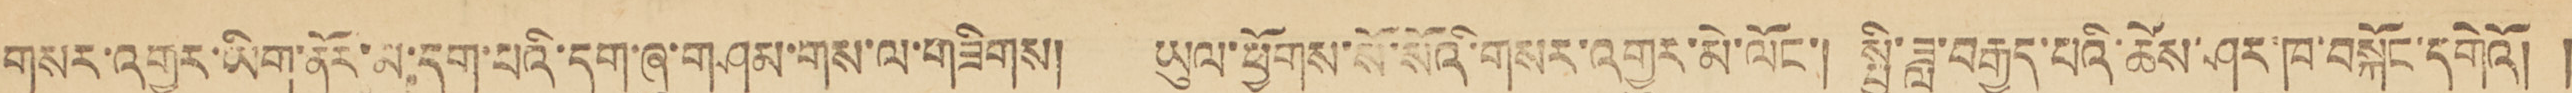གསར་འགྱུར་ཡིག་ནོར་མ་དག་པའི་དག་ཞུ་གཤམ་གས་ལ་གཟིགས། ཡུལ་ཕྱོགས་སོ་སོའི་གསར་འགྱུར་མེ་ལོང་། སྤྱི་ཟླ་བརྒྱད་པའི་ཚེས་ཤར་ཁ་བསྐོང་དགེའོ། །
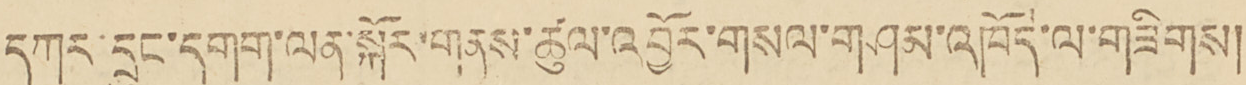དཀར་དྲུང་དགག་ལན་སྐོར་གནས་ཚུལ་འབྱོར་གསལ་གཤམ་འཁོད་ལ་གཟིགས།
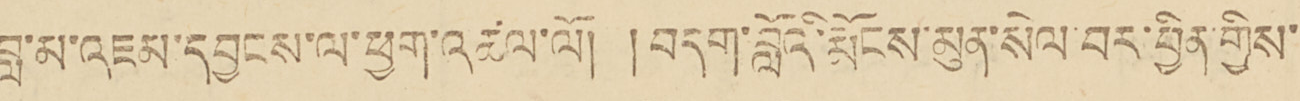བླ་མ་འཇམ་དབྱངས་ལ་ཕྱག་འཚལ་ལོ། །བདག་བློའི་རྨོངས་མུན་སེལ་བར་བྱིན་གྱིས་
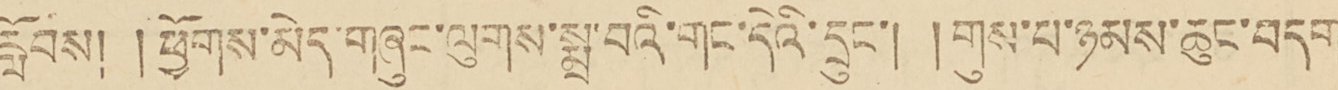རློབས། །ཕྱོགས་མེད་གཞུང་ལུགས་སྨྲ་བའི་གང་དེའི་དྲུང་། །གུས་པ་ཉམས་ཆུང་བདག
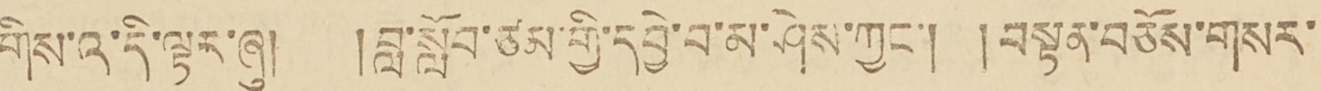གིས་འ་དི་ལྟར་ཞུ། །བླ་སློབ་ཙམ་གྱི་དབྱེ་བ་མ་ཤེས་ཀྱང་། །བསྟན་བཅོས་གསར་
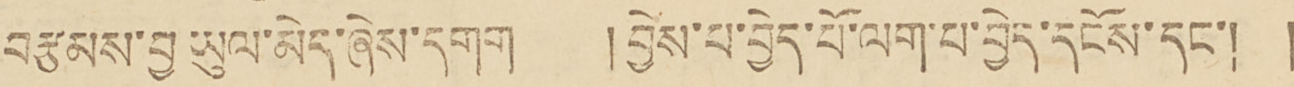བརྩམས་བྱ་ཡུལ་མེད་ཞེས་དགག །བྱེས་པ་བྱེད་པོ་ལག་པ་བྱེད་དངོས་དང་། །
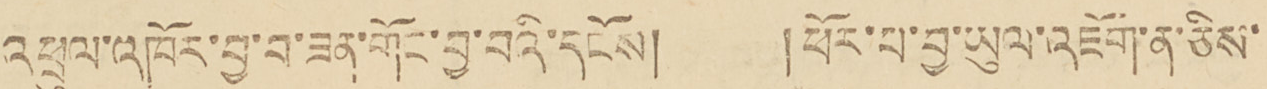འཕྲུལ་འཁོར་བྱ་བ་ཟན་གོང་བྱ་བའི་དངོས། །ཕོར་པ་བྱ་ཡུལ་འཇོག་ན་ཅིས་
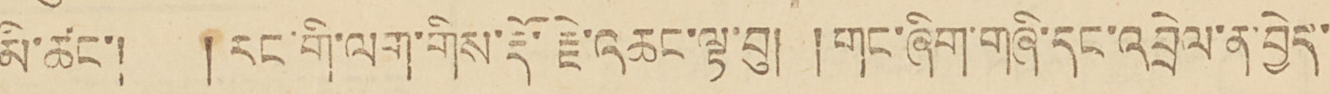མི་ཚང་། །རང་གི་ལག་གིས་རྡོ་རྗེ་འཆང་ལྟ་བུ། །གང་ཞིག་གཞི་དང་འབྲེལ་ན་བྱེད་
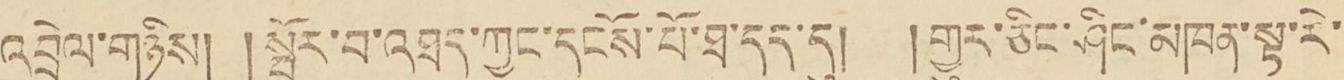འབྲེལ་གཉིས། །སྦྱོར་བ་འཐད་ཀྱང་དངོས་པོ་ཐ་དད་དུ། །གྱུར་ཅིང་ཤིང་མཁན་སྟ་རེ་
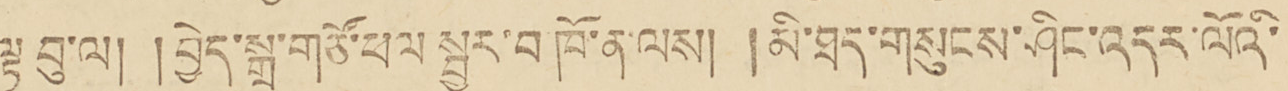ལྟ་བུ་ལ་། །བྱེད་སྒྲ་གཙོ་ཕལ་སྦྱར་བ་ཁོ་ན་ལས། །མི་ཐད་གསུངས་ཤིང་འདར་ལོའི་
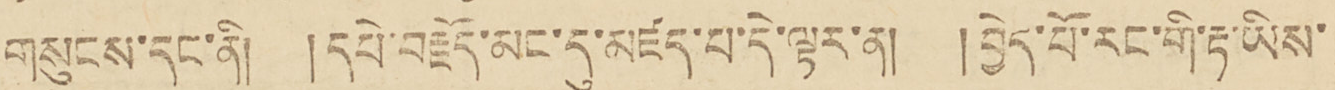གསུངས་དང་ནི། །དཔེ་བརྗོད་མང་དུ་མཛད་པ་དེ་ལྟར་ན། །བྱེད་པོ་རང་གི་རྟ་ཡིས་
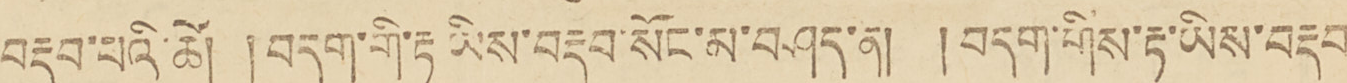བརྡབ་པའི་ཚེ། །བདག་གི་རྟ་ཡིས་བརྡབ་སོང་མ་བཤད་ན། །བདག་གིས་རྟ་ཡིས་བརྡབ
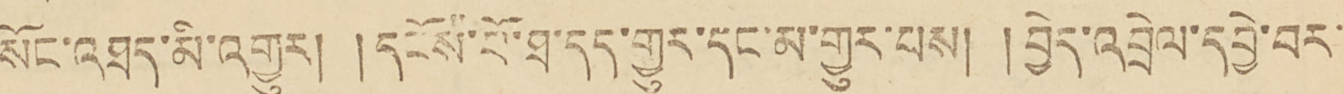སོང་འཐད་མི་འགྱུར། །དངོས་པོ་ཐ་དད་གྱུར་དང་མ་གྱུར་པས། །བྱེད་འབྲེལ་དབྱེ་བར་
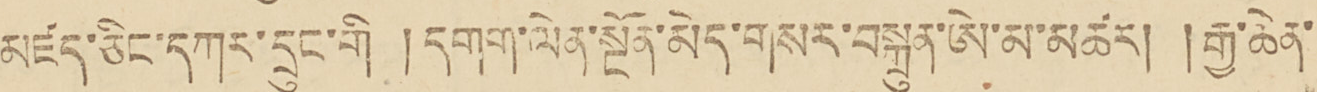མཛད་ཅིང་དཀར་དྲུང་གི །དགག་ལེན་སྔོན་མེད་གསར་བསྐྲུན་ཨེ་མ་མཚར། །རྒྱ་ཆེན་
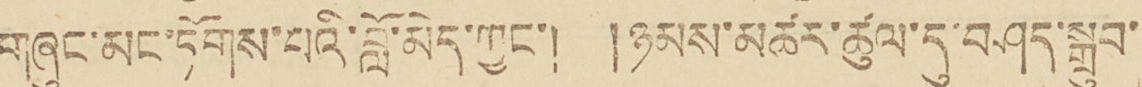གཞུང་མང་ཏོགས་པའི་བློ་མེད་ཀྱང་། །ཉམས་མཚར་ཚུལ་དུ་བཤད་སྒྲུབ་
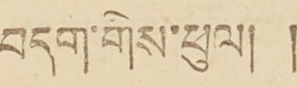བདག་གིས་ཕུལ། །
